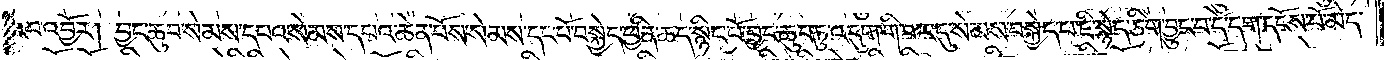རབ་འབྱོར། བྱང་ཆུབ་སེམས་དཔའ་སེམས་དཔའ་ཆེན་པོས་སེམས་དང་པོ་བསྐྱེད་ཕྱིན་ཆད་སྙིང་པོ་བྱང་ཆུབ་ཏུ་འདུག་གི་བར་དུ་སེམས་བསྐྱེད་པ་ཇི་སྙེད་ཅིག་བྱུང་བ་དེ་དག་དངོས་པོ་མེད་
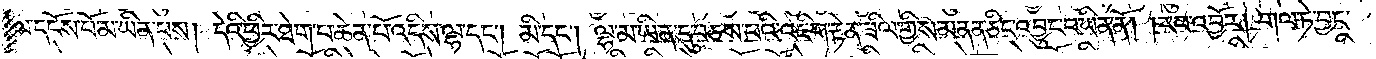ལ་དངོས་པོ་མ་ཡིན་པས། དེའི་ཕྱིར་ཐེག་པ་ཆེན་པོ་འདིས་ལྷ་དང༌། མི་དང༌། ལྷ་མ་ཡིན་དུ་བཅས་པའི་འཇིག་རྟེན་ཟིལ་གྱིས་མནན་ཅིང་འབྱུང་བ་ཡིན་ནོ། །རབ་འབྱོར། གལ་ཏེ་བྱང་
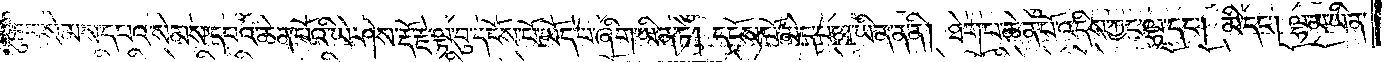ཆུབ་སེམས་དཔའ་སེམས་དཔའ་ཆེན་པོའི་ཡི་ཤེས་རྡོ་རྗེ་ལྟ་བུ་དངོས་པོ་ཡོད་པ་ཞིག་ཡིན་ཏེ། དངོས་པོ་མེད་པ་མ་ཡིན་ན་ནི། ཐེག་པ་ཆེན་པོ་འདིས་ཀྱང་ལྷ་དང༌། མི་དང༌། ལྷ་མ་ཡིན་
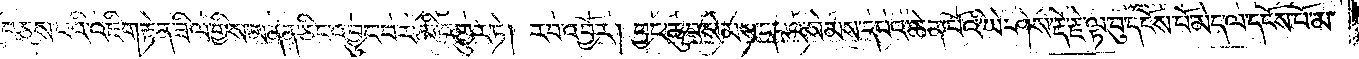དུ་བཅས་པའི་འཇིག་རྟེན་ཟིལ་གྱིས་མནན་ཅིང་འབྱུང་བར་མི་འགྱུར་ཏེ། རབ་འབྱོར། བྱང་ཆུབ་སེམས་དཔའ་སེམས་དཔའ་ཆེན་པོའི་ཡེ་ཤེས་རྡོ་རྗེ་ལྟ་བུ་དངོས་པོ་མེད་ལ་དངོས་པོ་མ་
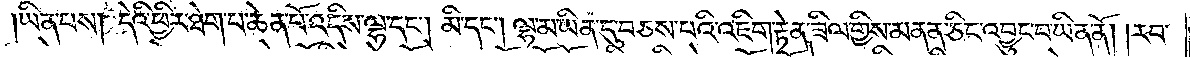ཡིན་པས། དེའི་ཕྱིར་ཐེག་པ་ཆེན་པོ་འདིས་ལྷ་དང༌། མི་དང༌། ལྷ་མ་ཡིན་དུ་བཅས་པའི་འཇིག་རྟེན་ཟིལ་གྱིས་མནན་ཅིང་འབྱུང་བ་ཡིན་ནོ། །རབ་
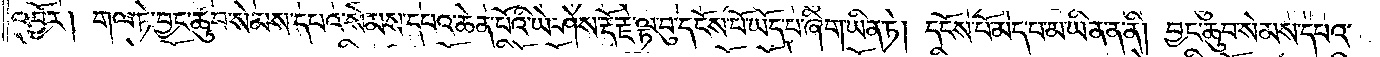འབྱོར། གལ་ཏེ་བྱང་ཆུབ་སེམས་དཔའ་སེམས་དཔའ་ཆེན་པོའི་ཡེ་ཤེས་རྡོ་རྗེ་ལྟ་བུ་དངོས་པོ་ཡོད་པ་ཞིག་ཡིན་ཏེ། དངོས་པོ་མེད་པ་མ་ཡིན་ན་ནི། བྱང་ཆུབ་སེམས་དཔའ་
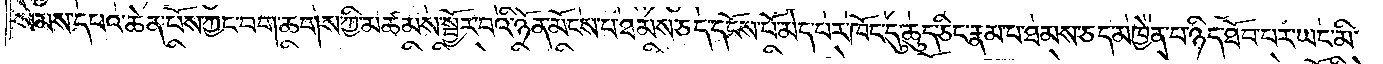སེམས་དཔའ་ཆེན་པོས་ཀྱང་བག་ཆགས་ཀྱི་མཚམས་སྦྱོར་བའི་ཉོན་མོངས་པ་ཐམས་ཅད་དངོས་པོ་མེད་པར་ཁོང་དུ་ཆུད་ཅིང་རྣམ་པ་ཐམས་ཅད་མཁྱེན་པ་ཉིད་ཐོབ་པར་ཡང་མི་
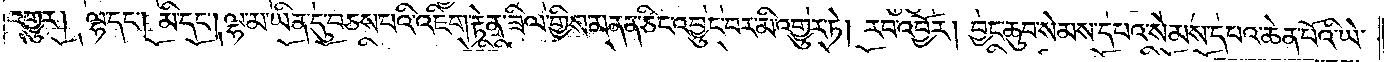འགྱུར། ལྷ་དང༌། མི་དང༌། ལྷ་མ་ཡིན་དུ་བཅས་པའི་འཇིག་རྟེན་ཟིལ་གྱིས་མནན་ཅིང་འབྱུང་བར་མི་འགྱུར་ཏེ། རབ་འབྱོར། བྱང་ཆུབ་སེམས་དཔའ་སེམས་དཔའ་ཆེན་པོའི་ཡེ་
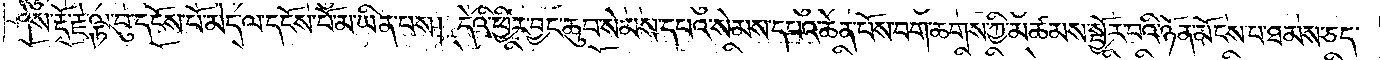ཤེས་རྡོ་རྗེ་ལྟ་བུ་དངོས་པོ་མེད་ལ་དངོས་པོ་མ་ཡིན་པས། དེའི་ཕྱིར་བྱང་ཆུབ་སེམས་དཔའ་སེམས་དཔའ་ཆེན་པོས་བག་ཆགས་ཀྱི་མཚམས་སྦྱོར་བའི་ཉོན་མོངས་པ་ཐམས་ཅད་
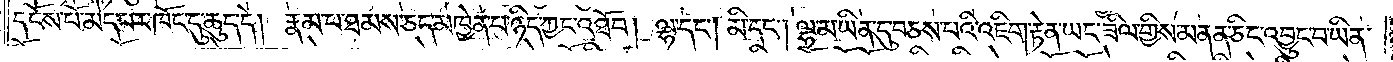དངོས་པོ་མེད་པར་ཁོང་དུ་ཆུད་དེ། རྣམ་པ་ཐམས་ཅད་མཁྱེན་པ་ཉིད་ཀྱང་འཐོབ། ལྷ་དང༌། མི་དང༌། ལྷ་མ་ཡིན་དུ་བཅས་པའི་འཇིག་རྟེན་ཡང་ཟིལ་གྱིས་མནན་ཅིང་འབྱུང་བ་ཡིན་
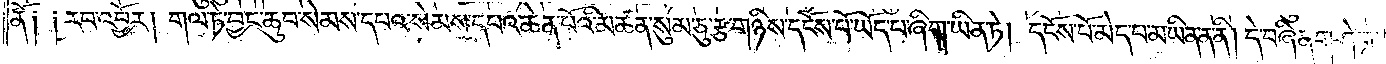ནོ། །རབ་འབྱོར། གལ་ཏེ་བྱང་ཆུབ་སེམས་དཔའ་སེམས་དཔའ་ཆེན་པོའི་མཚན་སུམ་ཅུ་རྩ་གཉིས་དངོས་པོ་ཡོད་པ་ཞིག་ཡིན་ཏེ། དངོས་པོ་མེད་པ་མ་ཡིན་ན་ནི། དེ་བཞིན་གཤེགས་
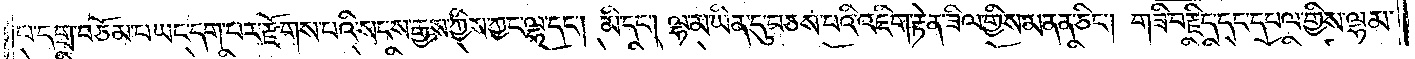པ་དགྲ་བཅོམ་པ་ཡང་དག་པར་རྫོགས་པའི་སངས་རྒྱས་ཀྱིས་ཀྱང་ལྷ་དང༌། མི་དང༌། ལྷ་མ་ཡིན་དུ་བཅས་པའི་འཇིག་རྟེན་ཟིལ་གྱིས་མནན་ཅིང༌། གཟི་བརྗིད་དང་དཔལ་གྱིས་ལྷམ་
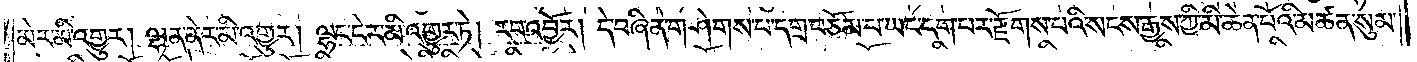མེར་མི་འགྱུར། ལྷན་ནེར་མི་འགྱུར། ལྷང་ངེར་མི་འགྱུར་ཏེ། རབ་འབྱོར། དེ་བཞིན་གཤེགས་པ་དགྲ་བཅོམ་པ་ཡང་དག་པར་རྫོགས་པའི་སངས་རྒྱས་ཀྱི་མི་ཆེན་པོའི་མཚན་སུམ་
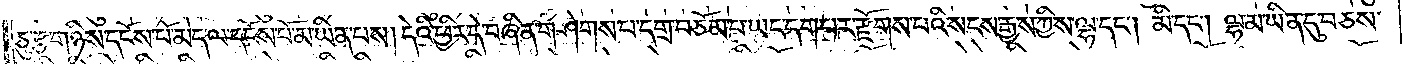ཅུ་རྩ་གཉིས་དངོས་པོ་མེད་ལ་དངོས་པོ་མ་ཡིན་པས། དེའི་ཕྱིར་དེ་བཞིན་གཤེགས་པ་དགྲ་བཅོམ་པ་ཡང་དག་པར་རྫོགས་པའི་སངས་རྒྱས་ཀྱིས་ལྷ་དང༌། མི་དང༌། ལྷ་མ་ཡིན་དུ་བཅས་
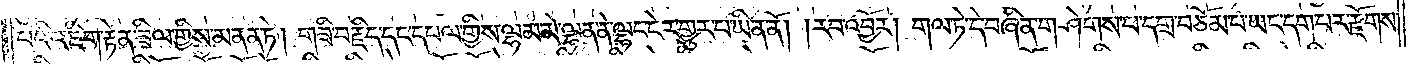པའི་འཇིག་རྟེན་ཟིལ་གྱིས་མནན་ཏེ། གཟི་བརྗིད་དང་དཔལ་གྱིས་ལྷ་མ་མེ་ལྷན་ནི་ལྷང་ངེར་གྱུར་བ་ཡིན་ནོ། །རབ་འབྱོར། གལ་ཏེ་དེ་བཞིན་གཤེགས་པ་དགྲ་བཅོམ་པ་ཡང་དག་པར་རྫོགས་
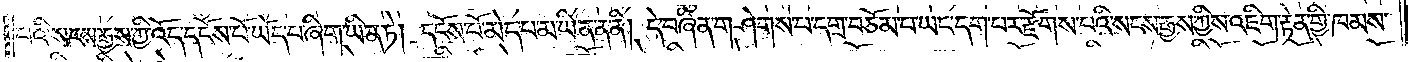པའི་སངས་རྒྱས་ཀྱི་འོད་དངོས་པོ་ཡོད་པ་ཞིག་ཡིན་ཏེ། དངོས་པོ་མེད་པ་མ་ཡིན་ན་ནི། དེ་བཞིན་གཤེགས་པ་དགྲ་བཅོམ་པ་ཡང་དག་པར་རྫོགས་པའི་སངས་རྒྱས་ཀྱིས་འཇིག་རྟེན་གྱི་ཁམས་
